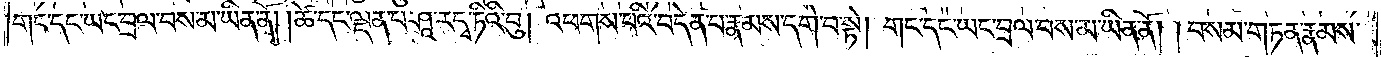གང་དང་ཡང་བྲལ་བས་མ་ཡིན་ནོ། །ཚེ་དང་ལྡན་པ་ཤཱ་ར་དྭ་ཏིའི་བུ། འཕགས་པའི་བདེན་པ་རྣམས་དགེ་བ་སྟེ། གང་དང་ཡང་བྲལ་བས་མ་ཡིན་ནོ། །བསམ་གཏན་རྣམས་
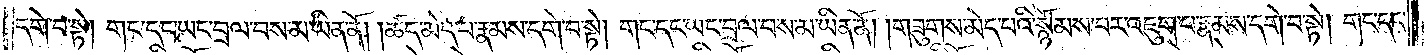དགེ་བ་སྟེ། གང་དང་ཡང་བྲལ་བས་མ་ཡིན་ནོ། །ཚད་མེད་པ་རྣམས་དགེ་བ་སྟེ། གང་དང་ཡང་བྲལ་བས་མ་ཡིན་ནོ། །གཟུགས་མེད་པའི་སྙོམས་པར་འཇུག་པ་རྣམས་དགེ་བ་སྟེ། གང་དང་
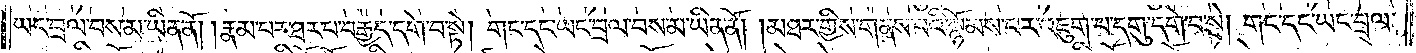ཡང་བྲལ་བས་མ་ཡིན་ནོ། །རྣམ་པར་ཐར་པ་བརྒྱད་དགེ་བ་སྟེ། གང་དང་ཡང་བྲལ་བས་མ་ཡིན་ནོ། །མཐར་གྱིས་གནས་པའི་སྙོམས་པར་འཇུག་པ་དགུ་དགེ་བ་སྟེ། གང་དང་ཡང་བྲལ་
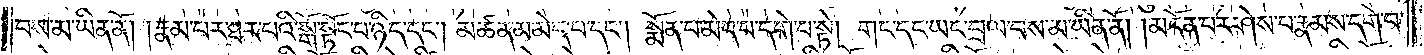བས་མ་ཡིན་ནོ། །རྣམ་པར་ཐར་པའི་སྒོ་སྟོང་པ་ཉིད་དང༌། མཚན་མ་མེད་པ་དང༌། སྨོན་པ་མེད་པ་དགེ་བ་སྟེ། གང་དང་ཡང་བྲལ་བས་མ་ཡིན་ནོ། །མངོན་པར་ཤེས་པ་རྣམས་དགེ་བ་
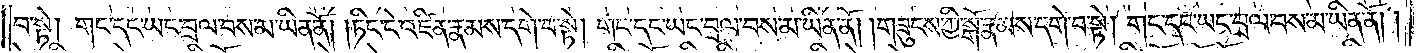སྟེ། གང་དང་ཡང་བྲལ་བས་མ་ཡིན་ནོ། །ཏིང་ངེ་འཛིན་རྣམས་དགེ་བ་སྟེ། གང་དང་ཡང་བྲལ་བས་མ་ཡིན་ནོ། །གཟུངས་ཀྱི་སྒོ་རྣམས་དགེ་བ་སྟེ། གང་དང་ཡང་བྲལ་བས་མ་ཡིན་ནོ། །
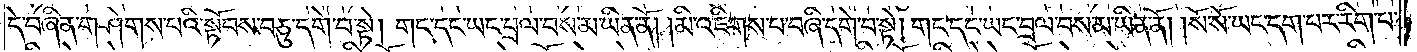དེ་བཞིན་གཤེགས་པའི་སྟོབས་བཅུ་དགེ་བ་སྟེ། གང་དང་ཡང་བྲལ་བས་མ་ཡིན་ནོ། །མི་འཇིགས་པ་བཞི་དགེ་བ་སྟེ། གང་དང་ཡང་བྲལ་བས་མ་ཡིན་ནོ། །སོ་སོ་ཡང་དག་པར་རིག་པ་
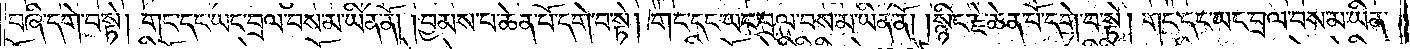བཞི་དགེ་བ་སྟེ། གང་དང་ཡང་བྲལ་བས་མ་ཡིན་ནོ། །བྱམས་པ་ཆེན་པོ་དགེ་བ་སྟེ། གང་དང་ཡང་བྲལ་བས་མ་ཡིན་ནོ། །སྙིང་རྗེ་ཆེན་པོ་དགེ་བ་སྟེ། གང་དང་ཡང་བྲལ་བས་མ་ཡིན་
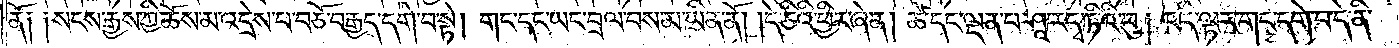ནོ༑ ༑སངས་རྒྱས་ཀྱི་ཆོས་མ་འདྲེས་པ་བཅོ་བརྒྱད་དགེ་བ་སྟེ། གང་དང་ཡང་བྲལ་བས་མ་ཡིན་ནོ། །དེ་ཅིའི་ཕྱིར་ཞེ་ན། ཚེ་དང་ལྡན་པ་ཤཱ་ར་དྭ་ཏིའི་བུ། འདི་ལྟར་གང་དགེ་བ་དེ་ནི་
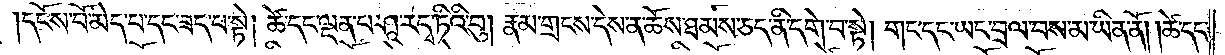དངོས་པོ་མེད་པ་དང་ཟད་པ་སྟེ། ཚེ་དང་ལྡན་པ་ཤཱ་ར་དྭ་ཏིའི་བུ། རྣམ་གྲངས་དེས་ན་ཆོས་ཐམས་ཅད་ནི་དགེ་བ་སྟེ༑གང་དང་ཡང་བྲལ་བས་མ་ཡིན་ནོ། །ཚེ་དང་
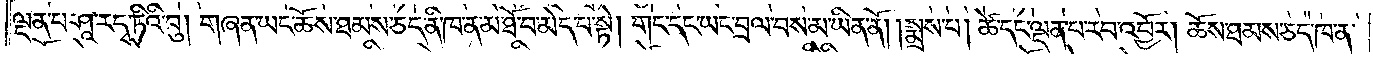ལྡན་པ་ཤཱ་ར་དྭ་ཏིའི་བུ། གཞན་ཡང་ཆོས་ཐམས་ཅད་ནི་ཁ་ན་མ་ཐོ་བ་མེད་པ་སྟེ། གང་དང་ཡང་བྲལ་བས་མ་ཡིན་ནོ། །སྨྲས་པ། ཚེ་དང་ལྡན་པ་རབ་འབྱོར། ཆོས་ཐམས་ཅད་ཁ་ན་
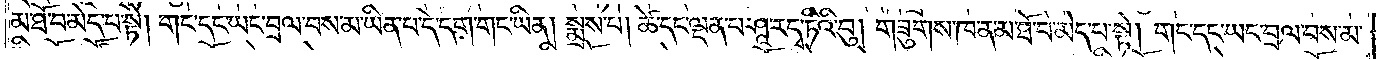མ་ཐོ་བ་མེད་པ་སྟེ། གང་དང་ཡང་བྲལ་བས་མ་ཡིན་པ་དེ་དག་གང་ཡིན། སྨྲས་པ། ཚེ་དང་ལྡན་པ་ཤཱ་ར་དྭ་ཏིའི་བུ། གཟུགས་ཁ་ན་མ་ཐོ་བ་མེད་པ་སྟེ། གང་དང་ཡང་བྲལ་བས་མ་
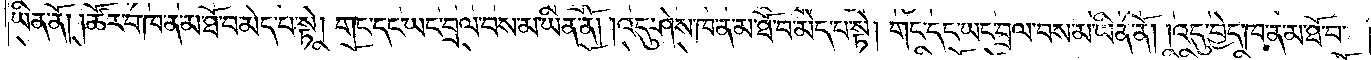ཡིན་ནོ། །ཚོར་བ་ཁ་ན་མ་ཐོ་བ་མེད་པ་སྟེ། གང་དང་ཡང་བྲལ་བས་མ་ཡིན་ནོ། །འདུ་ཤེས་ཁ་ན་མ་ཐོ་བ་མེད་པ་སྟེ། གང་དང་ཡང་བྲལ་བས་མ་ཡིན་ནོ། །འདུ་བྱེད་ཁ་ན་མ་ཐོ་བ་
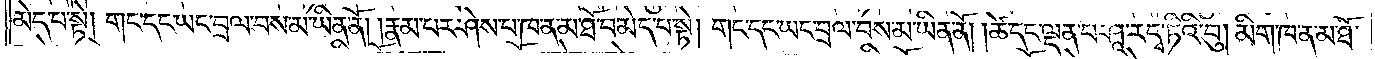མེད་པ་སྟེ། གང་དང་ཡང་བྲལ་བས་མ་ཡིན་ནོ། །རྣམ་པར་ཤེས་པ་ཁ་ན་མ་ཐོ་བ་མེད་པ་སྟེ། གང་དང་ཡང་བྲལ་བས་མ་ཡིན་ནོ། །ཚེ་དང་ལྡན་པ་ཤཱ་ར་དྭ་ཏིའི་བུ། མིག་ཁ་ན་མ་ཐོ་
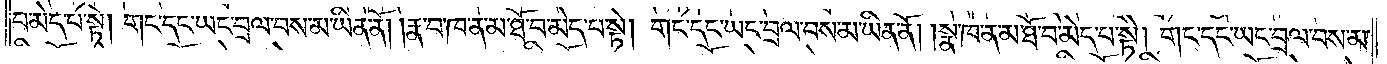བ་མེད་པ་སྟེ། གང་དང་ཡང་བྲལ་བས་མ་ཡིན་ནོ། །རྣ་བ་ཁ་ན་མ་ཐོ་བ་མེད་པ་སྟེ། གང་དང་ཡང་བྲལ་བས་མ་ཡིན་ནོ། །སྣ་ཁ་ན་མ་ཐོ་བ་མེད་པ་སྟེ། གང་དང་ཡང་བྲལ་བས་མ་
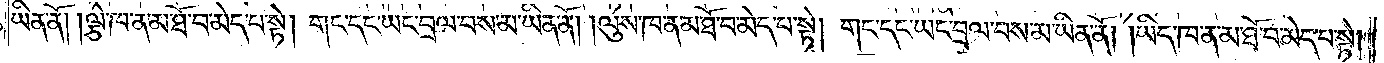ཡིན་ནོ། །ལྕེ་ཁ་ན་མ་ཐོ་བ་མེད་པ་སྟེ། གང་དང་ཡང་བྲལ་བས་མ་ཡིན་ནོ། །ལུས་ཁ་ན་མ་ཐོ་བ་མེད་པ་སྟེ། གང་དང་ཡང་བྲལ་བས་མ་ཡིན་ནོ། །ཡིད་ཁ་ན་མ་ཐོ་བ་མེད་པ་སྟེ།
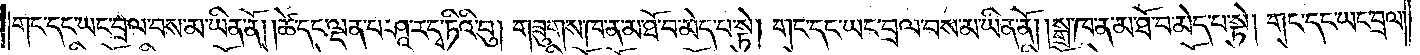གང་དང་ཡང་བྲལ་བས་མ་ཡིན་ནོ། །ཚེ་དང་ལྡན་པ་ཤཱ་ར་དྭ་ཏིའི་བུ། གཟུགས་ཁ་ན་མ་ཐོ་བ་མེད་པ་སྟེ། གང་དང་ཡང་བྲལ་བས་མ་ཡིན་ནོ། །སྒྲ་ཁ་ན་མ་ཐོ་བ་མེད་པ་སྟེ། གང་དང་ཡང་བྲལ་
